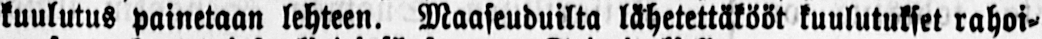kuulutus painetaan lehteen. Maaseuduilta l ä hetett ä kööt kuulutukset rahoi-
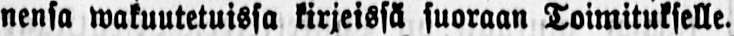nensa wakuutetuissa kirjeisss ä suoraan Toimitukselle.
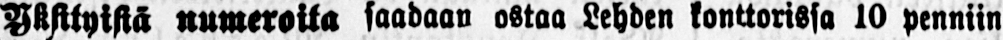Yksityisiä numeroita saadaan ostaa Lehden konttorissa 10 penniin
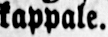kappale.
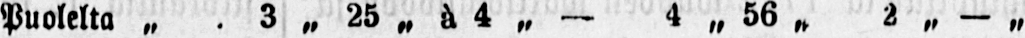Puolelta „ 3 „ 25 „ ä 4 „ — 4 „ 56 „ 2 „ — „
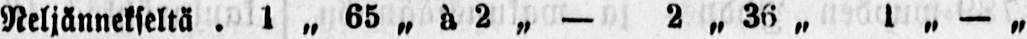Neljännekselt ä 1 „ 65 „ ä 2 „ — 2 36„ 1„ — „
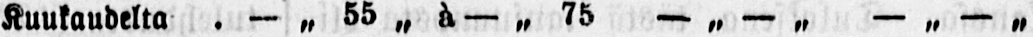Kuukaudelta — „ 55„ ä — „ 75 —„ — „ — „ — „
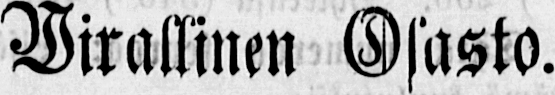Wirallinen Osasto.
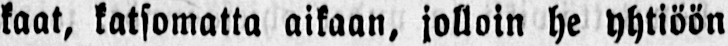kaat, katsomatta aikaan, jolloin he yhtiöön
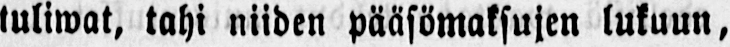tuliwat, tahi niiden pääsömaksujen lukuun,
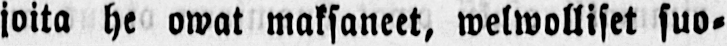joita he owat maksaneet, welwolliset suo-
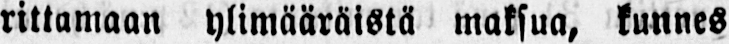rittamaan ylimääräistä maksua, kunnes
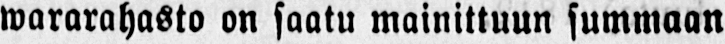wararahasto on saatu mainittuun summaan
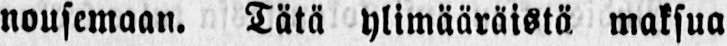nousemaan. Tätä ylimääräistä maksua
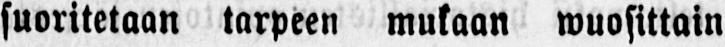suoritetaan tarpeen mukaan wuosittain
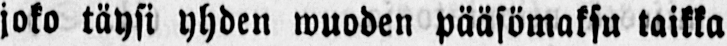joko täysi yhden wuoden pääsömaksu taikka
